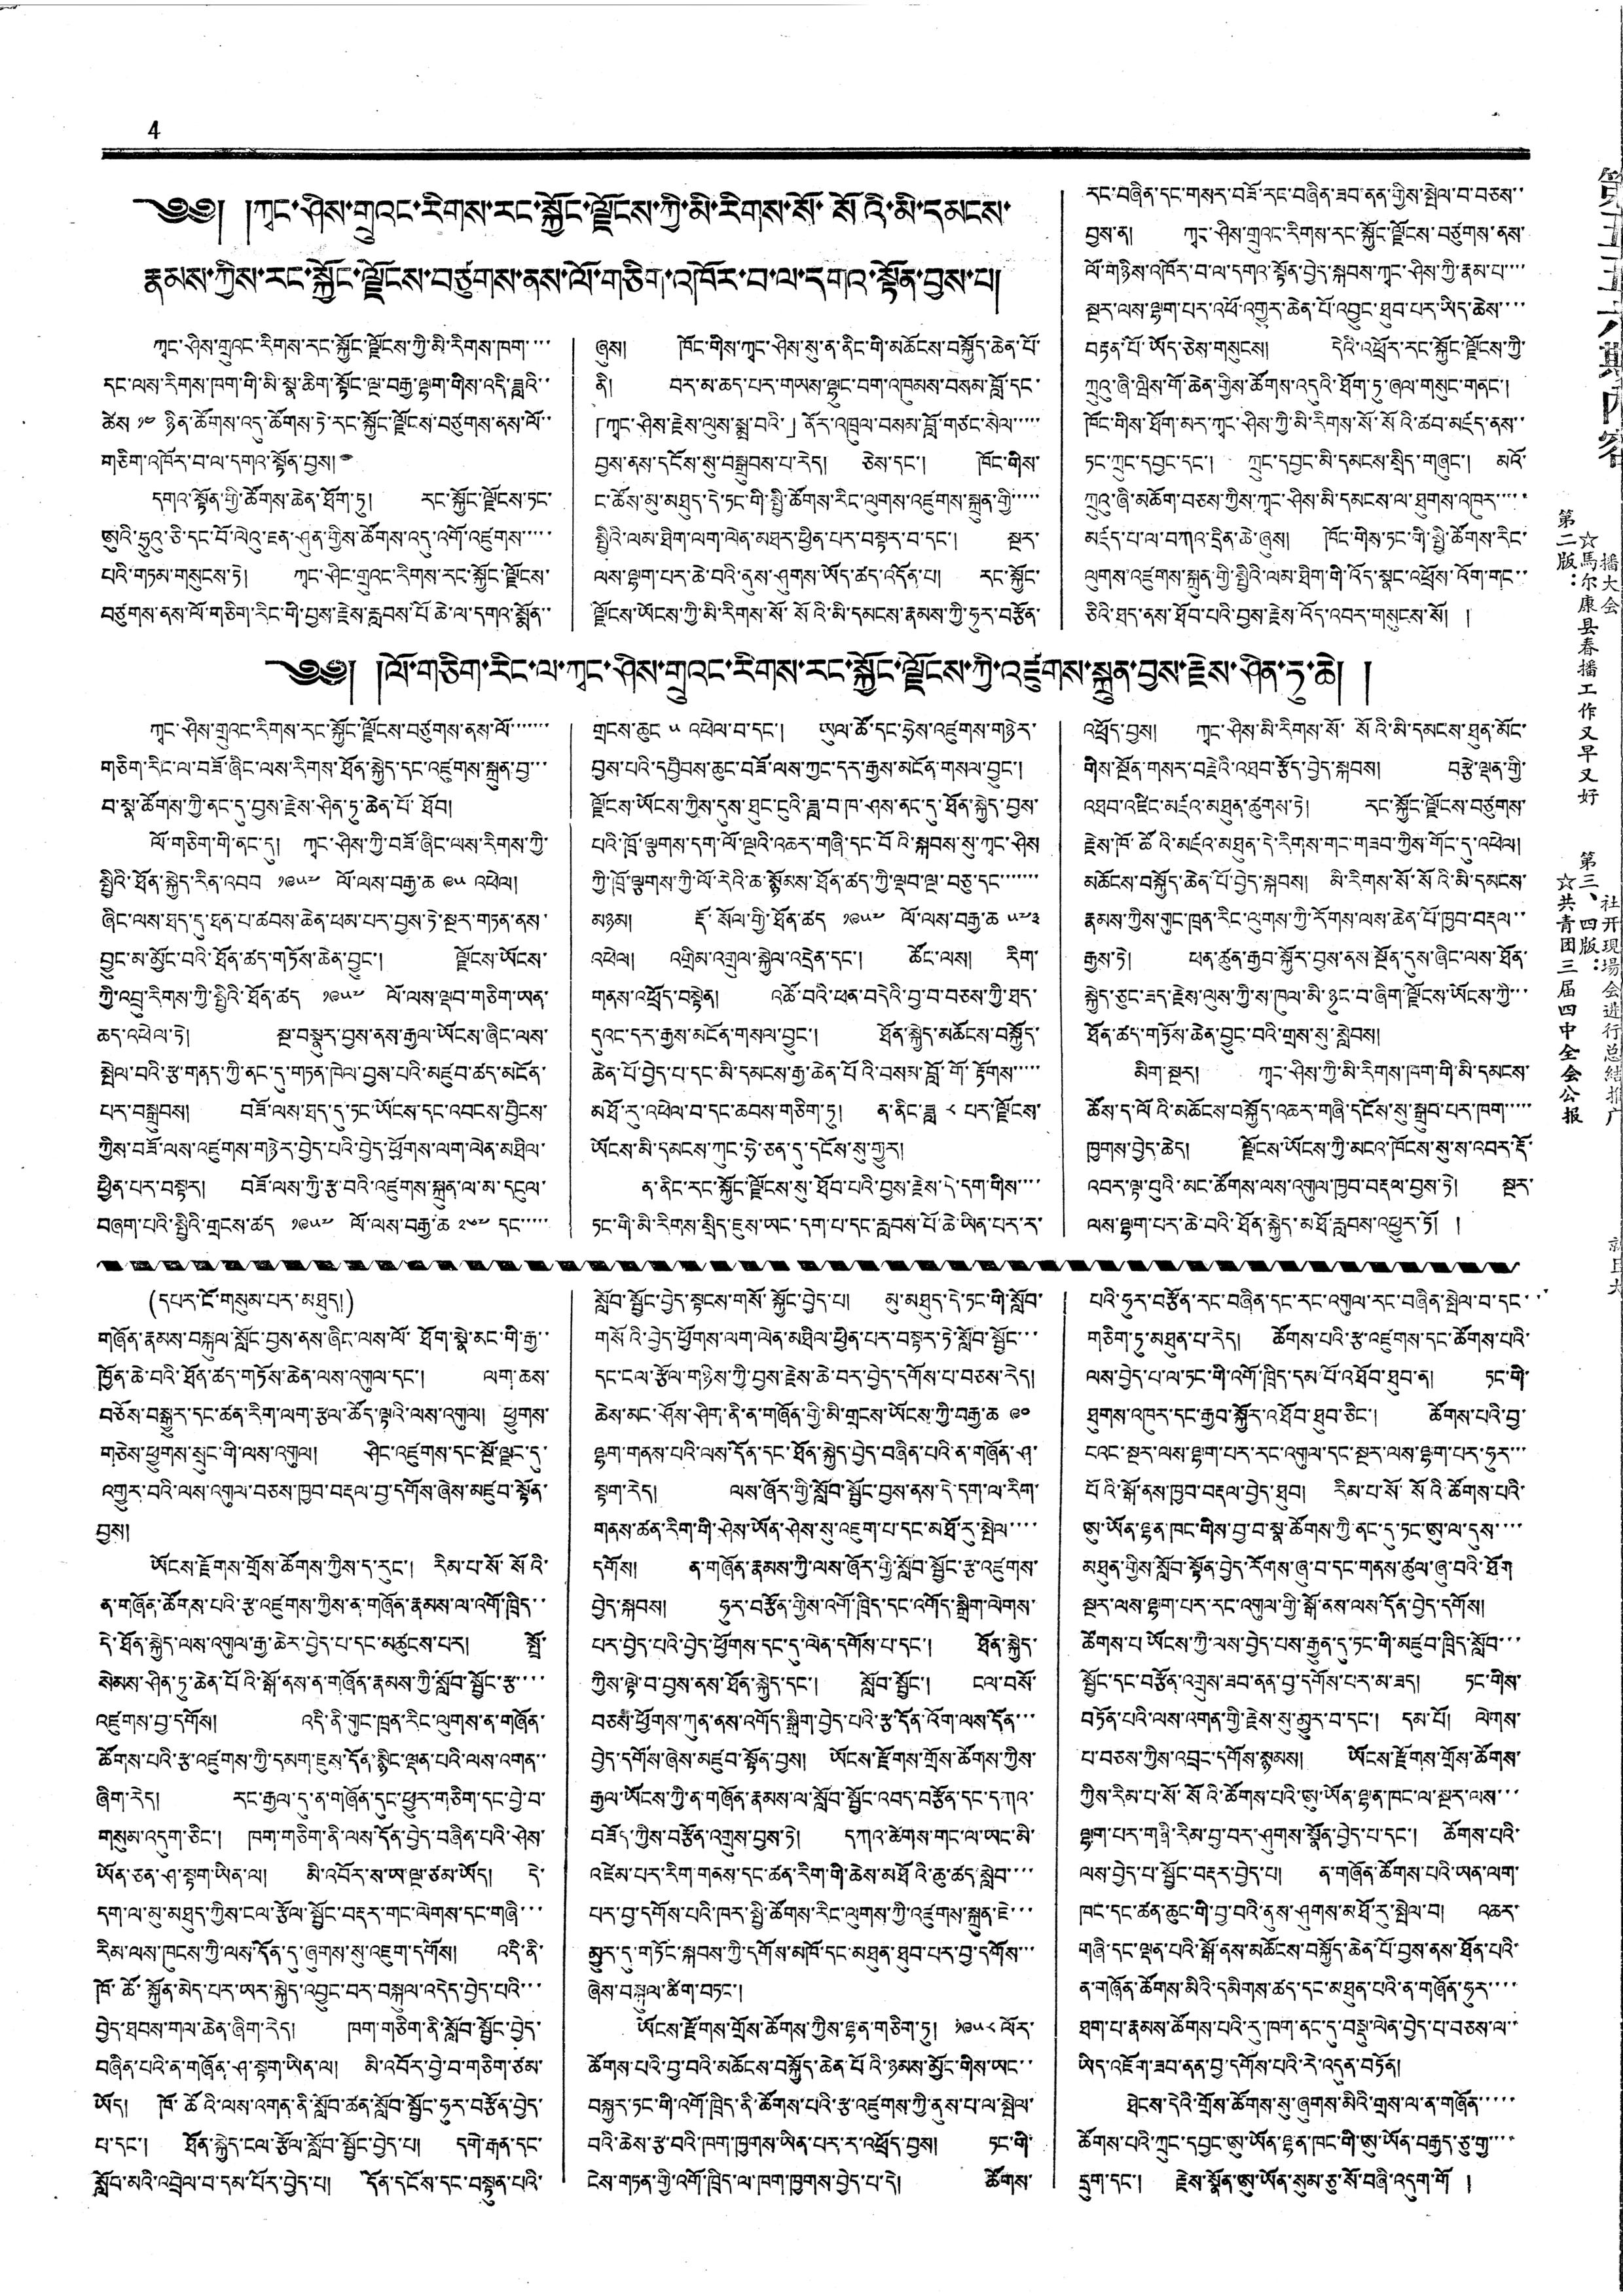4
༄༅། །ཀྭང་ཤིས་གྲུའང་རིགས་རང་སྐྱོང་ལྗོངས་ཀྱི་མི་རིགས་སོ་སོའི་མི་དམངས་
རྣམས་ཀྱིས་རང་སྐྱོང་ལྗོངས་བཙུགས་ནས་ལོ་གཅིག་འཁོར་བ་ལ་དགའ་སྟོན་བྱས་པ།
ཀྭང་ཤིས་གྲུའང་རིགས་རང་སྐྱོང་ལྗོངས་ཀྱི་མི་རིགས་ཁག་་་་
དང་ལས་རིགས་ཁག་གི་མི་སྣ་ཆིག་སྟོང་ལྔ་བརྒྱ་ལྷག་གིས་འདི་ཟླའི་་
ཚེས ༡༤ ཉིན་ཚོགས་འདུ་ཚོགས་ཏེ་རང་སྐྱོང་ལྗོངས་བཙུགས་ནས་ལོ་་
གཅིག་འཁོར་བ་ལ་དགའ་སྟོན་བྱས།
དགའ་སྟོན་གྱི་ཚོགས་ཆེན་ཐོག་ཏུ། རང་སྐྱོང་ལྗོངས་ཏང་
ཨུའི་ཧྲུའུ་ཅི་དང་བོ་ལེའུ་ཇན་ཤུན་གྱིས་ཚོགས་འདུ་འགོ་འཛུགས་་་་་
པའི་གཏམ་གསུངས་ཏེ། ཀྭང་ཤིང་གྲུའང་རིགས་རང་སྐྱོང་ལྗོངས་
བཙུགས་ནས་ལོ་གཅིག་རིང་གི་བྱས་རྗེས་རླབས་པོ་ཆེ་ལ་དགའ་སྨོན་་
ཞུས། ཁོང་གིས་ཀྭང་ཤིས་སུ་ན་ནིང་གི་མཆོངས་བསྐྱོད་ཆེན་པོ་
ནི། བར་མ་ཆད་པར་གཡས་ལྷུང་བག་འཁུམས་བསམ་བློ་དང་
「ཀྭང་ཤིས་རྗེས་ལུས་སྨྲ་བའི་」ནོར་འཁྲུལ་བསམ་བློ་གཙང་སེལ་་་་་
བྱས་ནས་དངོས་སུ་བསྒྲུབས་པ་རེད། ཅེས་དང་། ཁོང་གིས་
ང་ཚོས་མུ་མཐུད་དེ་ཏང་གི་སྤྱི་ཚོགས་རིང་ལུགས་འཛུགས་སྐྲུན་གྱི་་་་་
སྤྱིའི་ལམ་ཐིག་ལག་ལེན་མཐར་ཕྱིན་པར་བསྟར་བ་དང་། སྔར་
ལས་ལྷག་པར་ཆེ་བའི་ནུས་ཤུགས་ཡོད་ཚད་འདོན་པ། རང་སྐྱོང་
ལྗོངས་ཡོངས་ཀྱི་མི་རིགས་སོ་སོའི་མི་དམངས་རྣམས་ཀྱི་ཧུར་བརྩོན་
རང་བཞིན་དང་གསར་བཟོ་རང་བཞིན་ཟབ་ནན་གྱིས་སྤེལ་བ་བཅས་་
བྱས་ན། ཀྭང་ཤིས་གྲུའང་རིགས་རང་སྐྱོང་ལྗོངས་བཙུགས་ནས་
ལོ་གཉིས་འཁོར་བ་ལ་དགའ་སྟོན་བྱེད་སྐབས་ཀྭང་ཤིས་ཀྱི་རྣམ་པ་་་་
སྔར་ལས་ལྷག་པར་འཕོ་འགྱུར་ཆེན་པོ་འབྱུང་ཐུབ་པར་ཡིད་ཆེས་་་་
བརྟན་པོ་ཡོད་ཅེས་གསུངས། དེའི་འཕྲོར་རང་སྐྱོང་ལྗོངས་ཀྱི་
ཀྲུའུ་ཞི་ཝིས་གོ་ཆེན་གྱིས་ཚོགས་འདུའི་ཐོག་ཏུ་ཞལ་གསུང་གནང་།
ཁོང་གིས་ཐོག་མར་ཀྭང་ཤིས་ཀྱི་མི་རིགས་སོ་སོའི་ཚབ་མཛད་ནས་་
ཏང་ཀྲུང་དབྱང་དང་། ཀྲུང་དབྱང་མི་དམངས་སྲིད་གཞུང་། མའོ་
ཀྲུའུ་ཞི་མཆོག་བཅས་ཀྱིས་ཀྭང་ཤིས་མི་དམངས་ལ་ཐུགས་འཁུར་་་་་
མཛད་པ་ལ་བཀའ་དྲིན་ཆེ་ཞུས། ཁོང་གིས་ཏང་གི་སྤྱི་ཚོགས་རིང་
ལུགས་འཛུགས་སྐྲུན་ཀྱི་སྤྱིའི་ལམ་ཐིག་གི་འོད་སྣང་འཕྲོས་འོག་གང་་
ཅིའི་ཐད་ནས་ཐོབ་པའི་བྱས་རྗེས་འོད་འབར་གསུངས་སོ། །
༄༅། །ལོ་གཅིག་རིང་ལ་ཀྭང་ཤིས་གྲུའང་རིགས་རང་སྐྱོང་ལྗོངས་ཀྱི་འཛུགས་སྐྲུན་བྱས་རྗེས་ཤིན་ཏུ་ཆེ། །
ཀྭང་ཤིས་གྲུའང་རིགས་རང་སྐྱོང་ལྗོངས་བཙུགས་ནས་ལོ་་་་་་་
གཅིག་རིང་ལ་བཟོ་ཞིང་ལས་རིགས་ཐོན་སྐྱེད་དང་འཛུགས་སྐྲུན་བྱ་་་
བ་སྣ་ཚོགས་ཀྱི་ནང་དུ་བྱས་རྗེས་ཤིན་ཏུ་ཆེན་པོ་ཐོབ།
ལོ་གཅིག་གི་ནང་དུ། ཀྭང་ཤིས་ཀྱི་བཟོ་ཞིང་ལས་རིགས་ཀྱི་
སྤྱིའི་ཐོན་སྐྱེད་རིན་འབབ ༡༩༥༧ ལོ་ལས་བརྒྱ་ཆ ༩༥ འཕེལ།
ཞིང་ལས་ཐད་དུ་ཐན་པ་ཚབས་ཆེན་ཕམ་པར་བྱས་ཏེ་སྔར་གཏན་ནས་
བྱུང་མ་མྱོང་བའི་ཐོན་ཚད་གཏོས་ཆེན་བྱུང་། ལྗོངས་ཡོངས་
ཀྱི་འབྲུ་རིགས་ཀྱི་སྤྱིའི་ཐོན་ཚད ༡༩༥༧ ལོ་ལས་ལྡབ་གཅིག་ཡན་
ཆད་འཕེལ་ཏེ། སྔ་བསྣུར་བྱས་ནས་རྒྱལ་ཡོངས་ཞིང་ལས་
སྤེལ་བའི་རྩ་གནད་ཀྱི་ནང་དུ་གཏན་ཁེལ་བྱས་པའི་མཛུབ་ཚད་མངོན་
པར་བསྒྲུབས། བཟོ་ལས་ཐད་དུ་ཏང་ཡོངས་དང་འབངས་བྱིངས་
ཀྱིས་བཟོ་ལས་འཛུགས་གཉེར་བྱེད་པའི་བྱེད་ཕྱོགས་ལག་ལེན་མཐིལ་
ཕྱིན་པར་བསྟར། བཟོ་ལས་ཀྱི་རྩ་བའི་འཛུགས་སྐྲུན་ལ་མ་དངུལ་
བཞག་པའི་སྤྱིའི་གྲངས་ཚད ༡༩༥༧ ལོ་ལས་བརྒྱ་ཆ ༢༦༧ དང་་་་་
གྲངས་ཆུང ༥ འཕེལ་བ་དང་། ཡུལ་ཚོ་དང་ཧྲེས་འཛུགས་གཉེར་
བྱས་པའི་དབྱིབས་ཆུང་བཟོ་ལས་ཀྱང་དར་རྒྱས་མངོན་གསལ་བྱུང་།
ལྗོངས་ཡོངས་ཀྱིས་དུས་ཐུང་ངུའི་ཟླ་བ་ཁ་ཤས་ནང་དུ་ཐོན་སྐྱེད་བྱས་
པའི་ཁྲོ་ལྕགས་དག་ལོ་ལྔའི་འཆར་གཞི་དང་བོའི་སྐབས་སུ་ཀྭང་ཤིས
ཀྱི་ཁྲོ་ལྕགས་ཀྱི་ལོ་རེའི་ཆ་སྙོམས་ཐོན་ཚད་ཀྱི་ལྡབ་ལྔ་བཅུ་དང་་་་་་་
མཉམ། རྡོ་སོལ་གྱི་ཐོན་ཚད ༡༩༥༧ ལོ་ལས་བརྒྱ་ཆ ༥༧༣
འཕེལ། འགྲིམ་འགྲུལ་སྐྱེལ་འདྲེན་དང་། ཚོང་ལས། རིག་
གནས་འཕྲོད་བསྟེན། འཚོ་བའི་ཕན་བདེའི་བྱ་བ་བཅས་ཀྱི་ཐད་
དུའང་དར་རྒྱས་མངོན་གསལ་བྱུང་། ཐོན་སྐྱེད་མཆོངས་བསྐྱོད་
ཆེན་པོ་བྱེད་པ་དང་མི་དམངས་རྒྱ་ཆེན་པོའི་བསམ་བློ་གོ་རྟོགས་་་་་
མཐོ་རུ་འཕེལ་བ་དང་ཆབས་གཅིག་ཏུ། ན་ནིང་ཟླ ༨ པར་ལྗོངས་
ཡོངས་མི་དམངས་ཀུང་ཧྲེ་ཅན་དུ་དངོས་སུ་གྱུར།
ན་ནིང་རང་སྐྱོང་ལྗོངས་སུ་ཐོབ་པའི་བྱས་རྗེས་དེ་དག་གིས་་་་
ཏང་གི་མི་རིགས་སྲིད་ཇུས་ཡང་དག་པ་དང་རླབས་པོ་ཆེ་ཡིན་པར་ར་
འཕྲོད་བྱས། ཀྭང་ཤིས་མི་རིགས་སོ་སོའི་མི་དམངས་ཐུན་མོང་
གིས་སྔོན་གསར་བརྗེའི་འཐབ་རྩོད་བྱེད་སྐབས། བརྩེ་ལྡན་གྱི་
འཐབ་འཛིང་མཛའ་མཐུན་ཚུགས་ཏེ། རང་སྐྱོང་ལྗོངས་བཙུགས་
རྗེས་ཁོ་ཚོའི་མཛའ་མཐུན་དེ་རིགས་གང་གཟབ་ཀྱིས་གོང་དུ་འཕེལ།
མཆོངས་བསྐྱོད་ཆེན་པོ་བྱེད་སྐབས། མི་རིགས་སོ་སོའི་མི་དམངས་
རྣམས་ཀྱིས་གུང་ཁྲན་རིང་ལུགས་ཀྱི་རོགས་ལས་ཆེན་པོ་ཁྱབ་བརྡལ་་
རྒྱས་ཏེ། ཕན་ཚུན་རྒྱབ་སྐྱོར་བྱས་ནས་སྔོན་དུས་ཞིང་ལས་ཐོན་
སྐྱེད་ཅུང་ཟད་རྗེས་ལུས་ཀྱི་ས་ཁུལ་མི་ཉུང་བ་ཞིག་ལྗོངས་ཡོངས་ཀྱི་་་
ཐོན་ཚད་གཏོས་ཆེན་བྱུང་བའི་གྲས་སུ་སླེབས།
མིག་སྔར། ཀྭང་ཤིས་ཀྱི་མི་རིགས་ཁག་གི་མི་དམངས་
ཚོས་ད་ལོའི་མཆོངས་བསྐྱོད་འཆར་གཞི་དངོས་སུ་སྒྲུབ་པར་ཁག་་་་་
ཁྱགས་བྱེད་ཆེད། ལྗོངས་ཡོངས་ཀྱི་མངའ་ཁོངས་སུ་ས་འབར་རྡོ་
འབར་ལྟ་བུའི་མང་ཚོགས་ལས་འགུལ་ཁྱབ་བརྡལ་བྱས་ཏེ། སྔར་
ལས་ལྷག་པར་ཆེ་བའི་ཐོན་སྐྱེད་མཐོ་རླབས་འཕྱུར་ཏོ། །
(དཔར་ངོ་གསུམ་པར་མཐུད།)
གཞོན་རྣམས་བསྐུལ་སློང་བྱས་ནས་ཞིང་ལས་ལོ་ཐོག་སྣེ་མང་གི་རྒྱ་་
ཁྱོན་ཆེ་བའི་ཐོན་ཚད་གཏོས་ཆེན་ལས་འགུལ་དང་། ལག་ཆས་
བཅོས་བསྒྱུར་དང་ཚན་རིག་ལག་རྩལ་ཚོད་ལྟའི་ལས་འགུལ། ཕྱུགས་
གཅེས་ཕྱུགས་སྲུང་གི་ལས་འགུལ། ཤིང་འཛུགས་དང་སྔོ་ལྗང་དུ་
འགྱུར་བའི་ལས་འགུལ་བཅས་ཁྱབ་བརྡལ་བྱ་དགོས་ཞེས་མཛུབ་སྟོན་
བྱས།
ཡོངས་རྫོགས་གྲོས་ཚོགས་ཀྱིས་ད་རུང་། རིམ་པ་སོ་སོའི་
ན་གཞོན་ཚོགས་པའི་རྩ་འཛུགས་ཀྱིས་ན་གཞོན་རྣམས་ལ་འགོ་ཁྲིད་་
དེ་ཐོན་སྐྱེད་ལས་འགུལ་རྒྱ་ཆེར་བྱེད་པ་དང་མཚུངས་པར། སྤྲོ་
སེམས་ཤིན་ཏུ་ཆེན་པོའི་སྒོ་ནས་ན་གཞོན་རྣམས་ཀྱི་སློབ་སྦྱོང་རྩ་་་་
འཛུགས་བྱ་དགོས། འདི་ནི་གུང་ཁྲན་རིང་ལུགས་ན་གཞོན་
ཚོགས་པའི་རྩ་འཛུགས་ཀྱི་དམག་ཇུས་དོན་སྙིང་ལྡན་པའི་ལས་འགན་་
ཞིག་རེད། རང་རྒྱལ་དུ་ན་གཞོན་དུང་ཕྱུར་གཅིག་དང་བྱེ་བ་
གསུམ་འདུག་ཅིང་། ཁག་གཅིག་ནི་ལས་དོན་བྱེད་བཞིན་པའི་ཤེས་
ཡོན་ཅན་ཤ་སྟག་ཡིན་ལ། མི་འབོར་ས་ཡ་ལྔ་ཙམ་ཡོད། དེ་
དག་ལ་མུ་མཐུད་ཀྱིས་ངལ་རྩོལ་སྦྱོང་བརྡར་གང་ལེགས་དང་གཞི་་་
རིམ་ལས་ཁུངས་ཀྱི་ལས་དོན་དུ་ཞུགས་སུ་འཇུག་དགོས། འདི་ནི་
ཁོ་ཚོ་སྐྱོན་མེད་པར་ཡར་སྐྱེད་འབྱུང་བར་བསྐུལ་འདེད་བྱེད་པའི་་་
བྱེད་ཐབས་གལ་ཆེན་ཞིག་རེད། ཁག་གཅིག་ནི་སློབ་སྦྱོང་བྱེད་
བཞིན་པའི་ན་གཞོན་ཤ་སྟག་ཡིན་ལ། མི་འབོར་བྱེ་བ་གཅིག་ཙམ་
ཡོད། ཁོ་ཚོའི་ལས་འགན་ནི་སློབ་ཚན་སློབ་སྦྱོང་ཧུར་བརྩོན་བྱེད་
པ་དང་། ཐོན་སྐྱེད་ངལ་རྩོལ་སློབ་སྦྱོང་བྱེད་པ། དགེ་རྒན་དང་
སློབ་མའི་འབྲེལ་བ་དམ་པོར་བྱེད་པ། དོན་དངོས་དང་བསྟུན་པའི་
སློབ་སྦྱོང་བྱེད་སྟངས་གསོ་སྐྱོང་བྱེད་པ། མུ་མཐུད་དེ་ཏང་གི་སློབ་
གསོའི་བྱེད་ཕྱོགས་ལག་ལེན་མཐིལ་ཕྱིན་པར་བསྟར་ཏེ་སློབ་སྦྱོང་་་
དང་ངལ་རྩོལ་གཉིས་ཀྱི་བྱས་རྗེས་ཆེ་བར་བྱེད་དགོས་པ་བཅས་རེད།
ཆེས་མང་ཤོས་ཤིག་ནི་ན་གཞོན་གྱི་མི་གྲངས་ཡོངས་ཀྱི་བརྒྱ་ཆ ༩༠
ལྷག་གནས་པའི་ལས་དོན་དང་ཐོན་སྐྱེད་བྱེད་བཞིན་པའི་ན་གཞོན་ཤ་
སྟག་རེད། ལས་ཞོར་གྱི་སློབ་སྦྱོང་བྱས་ནས་དེ་དག་ལ་རིག་
གནས་ཚན་རིག་གི་ཤེས་ཡོན་ཤེས་སུ་འཇུག་པ་དང་མཐོ་རུ་སྤེལ་་་་
དགོས། ན་གཞོན་རྣམས་ཀྱི་ལས་ཞོར་གྱི་སློབ་སྦྱོང་རྩ་འཛུགས་
བྱེད་སྐབས། ཧུར་བརྩོན་གྱིས་འགོ་ཁྲིད་དང་འགོད་སྒྲིག་ལེགས་
པར་བྱེད་པའི་བྱེད་ཕྱོགས་དང་དུ་ལེན་དགོས་པ་དང་། ཐོན་སྐྱེད་
ཀྱིས་ལྟེ་བ་བྱས་ནས་ཐོན་སྐྱེད་དང་། སློབ་སྦྱོང་། ངལ་བསོ་
བཅས་ཕྱོགས་ཀུན་ནས་འགོད་སྒྲིག་བྱེད་པའི་རྩ་དོན་འོག་ལས་དོན་་་
བྱེད་དགོས་ཞེས་མཛུབ་སྟོན་བྱས། ཡོངས་རྫོགས་གྲོས་ཚོགས་ཀྱིས་
རྒྱལ་ཡོངས་ཀྱི་ན་གཞོན་རྣམས་ལ་སློབ་སྦྱོངས་འབད་བརྩོན་དང་དཀའ་
བཟོད་ཀྱིས་བརྩོན་འགྲུས་བྱས་ཏེ། དཀའ་ཚེགས་གང་ལ་ཡང་མི་
འཛེམ་པར་རིག་གནས་དང་ཚན་རིག་གི་ཆེས་མཐོའི་ཆུ་ཚད་སླེབ་་་་
པར་བྱ་དགོས་པའི་ཁར་སྤྱི་ཚོགས་རིང་ལུགས་ཀྱི་འཛུགས་སྐྲུན་ཇེ་་་
མྱུར་དུ་གཏོང་སྐབས་ཀྱི་དགོས་མཁོ་དང་མཐུན་ཐུབ་པར་བྱ་དགོས་་་
ཞེས་བསྐུལ་ཚིག་བཏང་།
ཡོངས་རྫོགས་གྲོས་ཚོགས་ཀྱིས་ལྷན་གཅིག་ཏུ། ༡༩༥༨ ལོར་
ཚོགས་པའི་བྱ་བའི་མཆོངས་བསྐྱོད་ཆེན་པོའི་ཉམས་མྱོང་གིས་ཡང་་
བསྐྱར་ཏང་གི་འགོ་ཁྲིད་ནི་ཚོགས་པའི་རྩ་འཛུགས་ཀྱི་ནུས་པ་ལ་སྤེལ་
བའི་ཆེས་རྩ་བའི་ཁག་ཁྱགས་ཡིན་པར་ར་འཕྲོད་བྱས། ཏང་གི་
ངེས་གཏན་གྱི་འགོ་ཁྲིད་ལ་ཁག་ཁྱགས་བྱེད་པ་དེ། ཚོགས་
པའི་ཧུར་བརྩོན་རང་བཞིན་དང་རང་འགུལ་རང་བཞིན་སྤེལ་བ་དང་་
གཅིག་ཏུ་མཐུན་པ་རེད། ཚོགས་པའི་རྩ་འཛུགས་དང་ཚོགས་པའི་
ལས་བྱེད་པ་ལ་ཏང་གི་འགོ་ཁྲིད་དམ་པོ་འཐོབ་ཐུབ་ན། ཏང་གི་
ཐུགས་འཁུར་དང་རྒྱབ་སྐྱོར་འཐོབ་ཐུབ་ཅིང་། ཚོགས་པའི་བྱ་
ངའང་སྔར་ལས་ལྷག་པར་རང་འགུལ་དང་སྔར་ལས་ལྷག་པར་ཧུར་་་
པོའི་སྒོ་ནས་ཁྱབ་བརྡལ་བྱེད་ཐུབ། རིམ་པ་སོ་སོའི་ཚོགས་པའི་
ཨུ་ཡོན་ལྷན་ཁང་གིས་བྱ་བ་སྣ་ཚོགས་ཀྱི་ནང་དུ་ཏང་ཨུ་ལ་དུས་་་་
མཐུན་གྱིས་སློབ་སྟོན་བྱེད་རོགས་ཞུ་བ་དང་གནས་ཚུལ་ཞུ་བའི་ཐོག
སྔར་ལས་ལྷག་པར་རང་འགུལ་གྱི་སྒོ་ནས་ལས་དོན་བྱེད་དགོས།
ཚོགས་པ་ཡོངས་ཀྱི་ལས་བྱེད་པས་རྒྱུན་དུ་ཏང་གི་མཛུབ་ཁྲིད་སློབ་་་
སྦྱོང་དང་བརྩོན་འགྲུས་ཟབ་ནན་བྱ་དགོས་པར་མ་ཟད། ཏང་གིས་
བཏོན་པའི་ལས་འགན་གྱི་རྗེས་སུ་མྱུར་བ་དང་། དམ་པོ། ལེགས་
པ་བཅས་ཀྱིས་འབྲང་དགོས་སྙམས། ཡོངས་རྫོགས་གྲོས་ཚོགས་
ཀྱིས་རིམ་པ་སོ་སོའི་ཚོགས་པའི་ཨུ་ཡོན་ལྷན་ཁང་ལ་སྔར་ལས་་་
ལྷག་པར་གཞི་རིམ་བྱ་བར་ཤུགས་སྣོན་བྱེད་པ་དང་། ཚོགས་པའི་
ལས་བྱེད་པ་སྦྱོང་བརྡར་བྱེད་པ། ན་གཞོན་ཚོགས་པའི་ཡན་ལག་
ཁང་དང་ཚན་ཆུང་གི་བྱ་བའི་ནུས་ཤུགས་མཐོ་རུ་སྤེལ་བ། འཆར་
གཞི་དང་ལྡན་པའི་སྒོ་ནས་མཆོངས་བསྐྱོད་ཆེན་པོ་བྱས་ནས་ཐོན་པའི་
ན་གཞོན་ཚོགས་མིའི་དམིགས་ཚད་དང་མཐུན་པའི་ན་གཞོན་ཧུར་་་་
ཐག་པ་རྣམས་ཚོགས་པའི་རུ་ཁག་ནང་དུ་བསྡུ་ལེན་བྱེད་པ་བཅས་ལ་་
ཡིད་འཇོག་ཟབ་ནན་བྱ་དགོས་པའི་རེ་འདུན་བཏོན།
ཐེངས་དེའི་གྲོས་ཚོགས་སུ་ཞུགས་མིའི་གྲས་ལ་ན་གཞོན་་་་་
ཚོགས་པའི་ཀྲུང་དབྱང་ཨུ་ཡོན་ལྷན་ཁང་གི་ཨུ་ཡོན་བརྒྱད་ཅུ་གྱ་་་་
དྲུག་དང་། རྗེས་སྣོན་ཨུ་ཡོན་སུམ་ཅུ་སོ་བཞི་འདུག་གོ །
第五五六期內容
播大会
☆馬尔康县春播工作又早又好
第二版：
社开現場会进行总結推广
第三、四版：
☆共青团三届四中全会公报
就巨大
